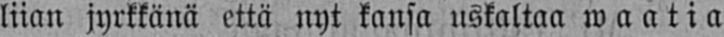liian jyrkkänä että nyt kansa uskaltaa waatia
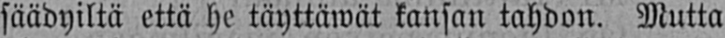säädyiltä että he täyttäwät kansan tahdon. Mutta
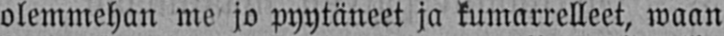olemmehan me jo pyytäneet ja kumarrelleet, waan
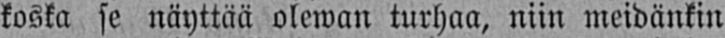koska se näyttää olewan turhaa, niin meidänkin
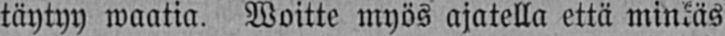täytyy waatia. Woitte myös ajatella että minkäs
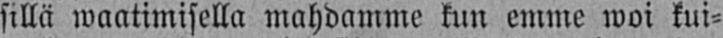sillä waatimisella mahdamme kun emme woi kui-
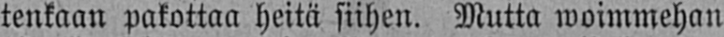tenkaan pakottaa heitä siihen. Mutta woimmehan
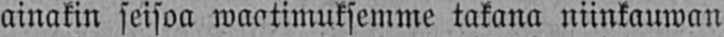ainakin seisoa waatimuksemme takana niinkauwan
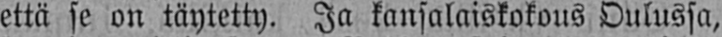että se on täytetty. Ja kansalaiskokous Oulussa,
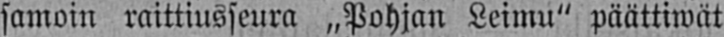samoin raittiusseura „Pohjan Leimu" päättiwät
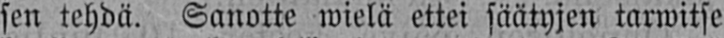sen tehdä. Sanotte wielä ettei säätyjen tarwitse
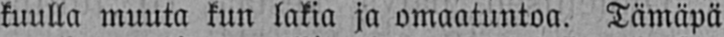kuulla muuta kun lakia ja omaatuntoa. Tämäpä
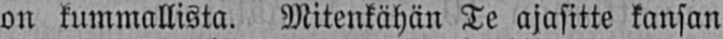on kummallista. Mitenkähän Te ajasitte kansan
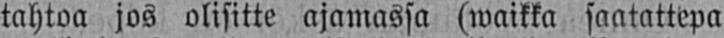tahtoa jos olisitte ajamassa (waikka saatattepa
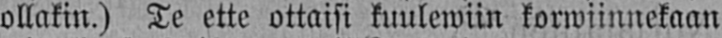ollakin.) Te ette ottaisi kuulewiin korwiinnekaan
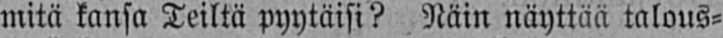mitä kansa Teiltä pyytäisi? Näin näyttää talous-
